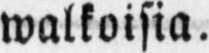walkoisia.
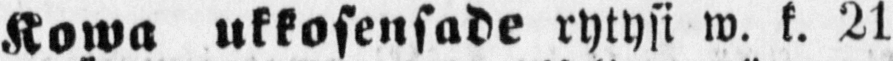Kowa ukkosensade rytysi w. k. 21
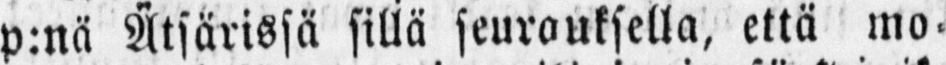p:nä Ätsärissä sillä seurauksella, että mo-
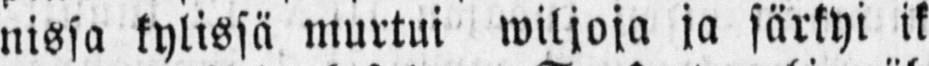nissa kylissä murtui wiljoja ja särkyi ik-
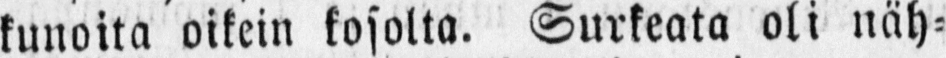kunoita oikein kosolta. Surkeata oli näh-
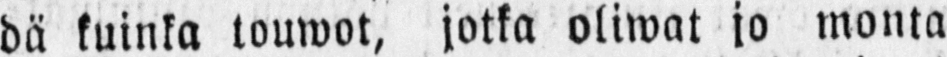dä kuinka touwot, jotka oliwat jo monta
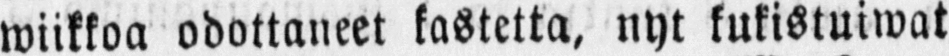wiikkoa odottaneet kastetta, nyt kukistuiwat
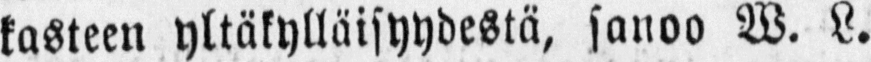kasteen yltäkylläisyydestä, sanoo W. L.
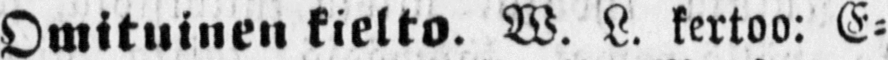Omituinen kielto. W. L. kertoo: E-
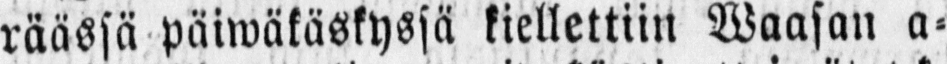räässä päiwäkäskyssä kiellettiin Waasan a-
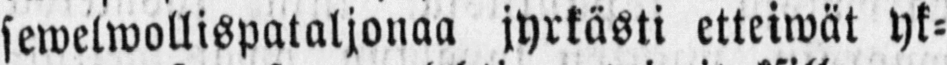sewelwollispataljonaa jyrkästi etteiwät yk-
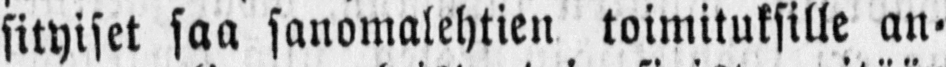sityiset saa sanomalehtien toimituksille an-
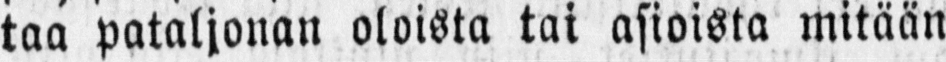taa pataljonan oloista tai asioista mitään
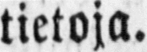tietoja.
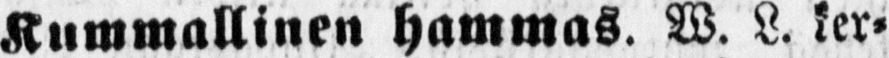Kummallinen hammas W. L. ker-
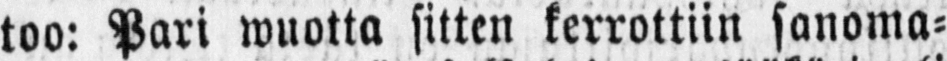too: Pari wuotta sitten kerrottiin sanoma-
